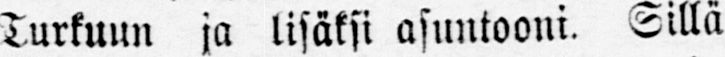Turkuun ja lisäksi asuntooni. Sillä
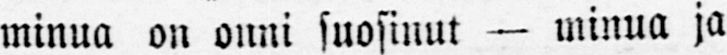minua on onni suosinut — minua ja
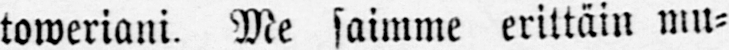toweriani. Me saimme erittäin mu-
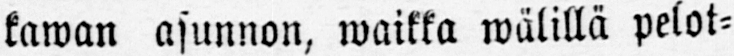kawan asunnon, waikka wälillä pelot-
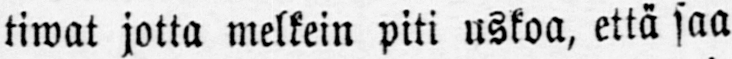tiwat jotta melkein piti uskoa, että saa
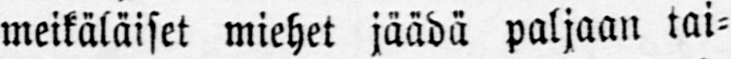meikäläiset miehet jäädä paljaan tai-
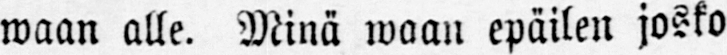waan alle. Minä waan epäilen josko
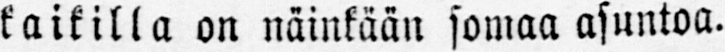kaikilla on näinkään somaa asuntoa.
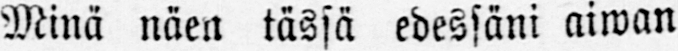Minä näen tässä edessäni aiwan
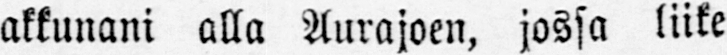akkunani alla Aurajoen, jossa liike
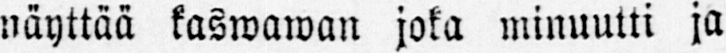näyttää kaswawan joka minuutti ja
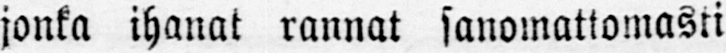jonka ihanat rannat sanomattomasti
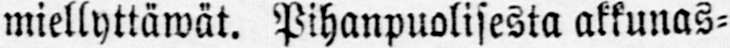miellyttäwät. Pihanpuolisesta akkunas-
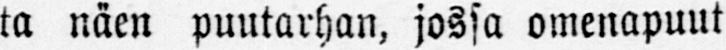ta näen puutarhan, jossa omenapuut
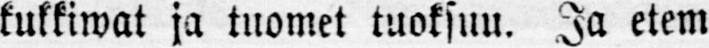kukkiwat ja tuomet tuoksuu. Ja etem-
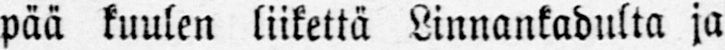pää kuulen liikettä Linnankadulta ja
